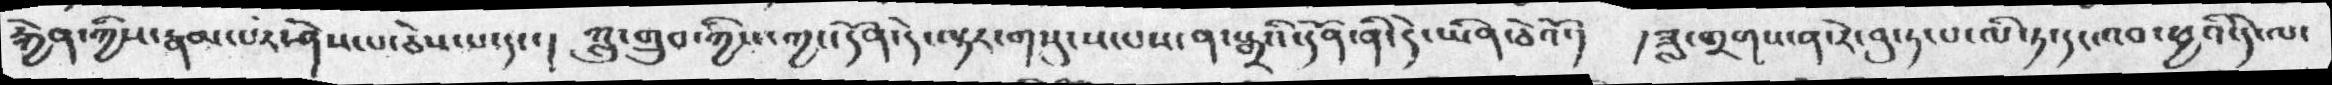རྐྱེན་ཀྱིས་རྣམ་པར་ཤེས་པ་ཅེས་པ་དང་།  ཀླུ་གྲུབ་ཀྱིས་ཀྱང་དོན་དེ་ལྟར་གསུངས་པས་ན་སྒྲའི་དོན་ནི་དེ་ཡིན་ཅེའོ་།  །ཟླ་གྲགས་ན་རེ་བུ་ཏ་པ་ལི་ཏ་དང་འབ་ཕྱའི་དེ་ལ་
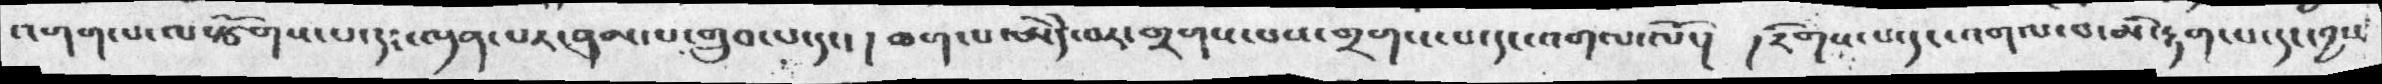འགག་༷པ་ལ་རྩོགས་པ་དང་ལྡན་པར་བུམ་པ་གྲུབ་པ་དང་།  ཆག་པ་མེདེ་བར་གྲགས་པས་གྲགས་པ་དང་འགལ་ལོ་།  །རིགས་པ་དང་འགལ་བ་མི་རྟག་པ་དང་བྱས
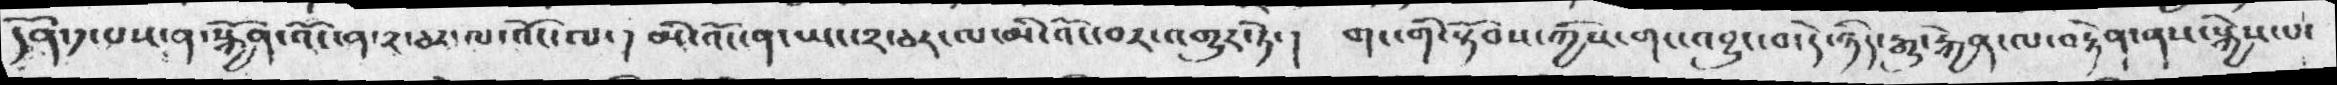དོན་༡་པས་ན་སྐྱོན་འོང་ན་༢་ཅར་ལ་འོང་ལ་། མི་འོང་ན་ཡང་༢་ཅར་ལ་མི་འོང་བར་འགྱུར་ཏེ་།  གང་གི་སྟོབས་ཀྱིས་གང་འབྱུང་བ་དེ་ཉིད་རྒྱུ་རྐྱེན་ལ་བརྟེན་ནས་སྐྱེས་པ་
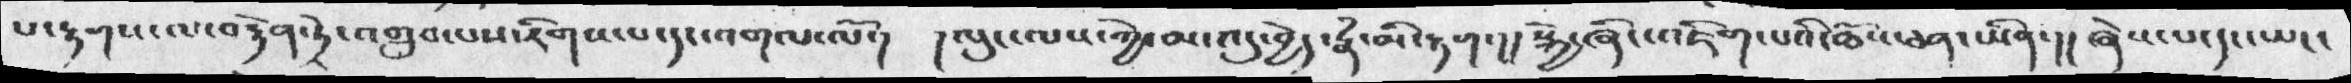པ་རྟགས་ལ་བརྟེན་ཏེ་འགྲུབ་པས་རིགས་པ་དང་འགལ་ལོ་།  །ལུང་ལས་ཀྱེ་མ་འདུ་བྱེད་རྣཾ་མི་རྟག་།། སྐྱེ་ཞིང་འཇིག་པའི་ཆོས་ཅན་ཡིན་།། ཞེས་པ་དང་ཡང་
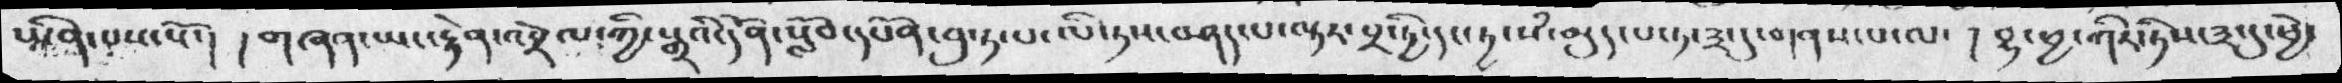ཡིན་པས་སོ་།  ། གཞན་ཡང་རྟེན་འབྲེལ་ཀྱི་སྒྲའི་དོན་སློབ་དཔོན་བུ་ཏ་པ་ལི་ཏས་བཤད་པ་ལྟར་པྲ་ཏྱི་དང་ཏྱ་སཾ་མུད་པ་ཏ་༣་དུ་གནས་པ་ལ་ ། བྷ་ཕྱ་ཀིར་ཏིས་༣་དུ་ཕྱེ་
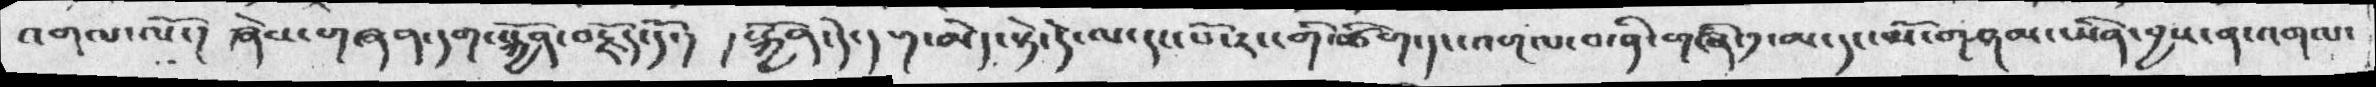འགལ་ལོ་། ཞེས་གཞན་དག་སྐྱོན་བརྗོད་དོ་། །སྐྱོན་དེ་དག་མེད་སྟེ་དེ་ལ་དང་པོ་རང་གི་ཚིག་དང་འགལ་བ་ནི་གཞི་དུ་མ་དང་མོ་གཤམ་པའི་བྱས་ན་འགལ་
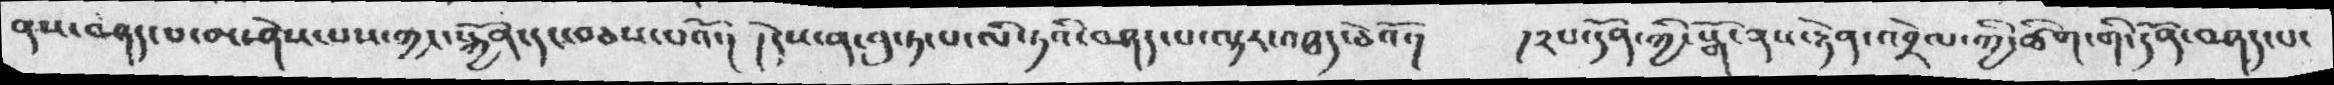ནས་བཤད་པ་མ་ཤེས་པས་ཀྱང་སྐྱོན་དང་བཅས་པའོ་། །དེས་ན་བུ་ཏ་པ་ལི་ཏའི་བཤད་པ་ལྟར་འཐད་ཅེའོ་། །༢པ་དོན་གྱི་སྒོ་ནས་རྟེན་འབྲེལ་ཀྱི་ཚིག་གི་དོན་བཤད་པ་
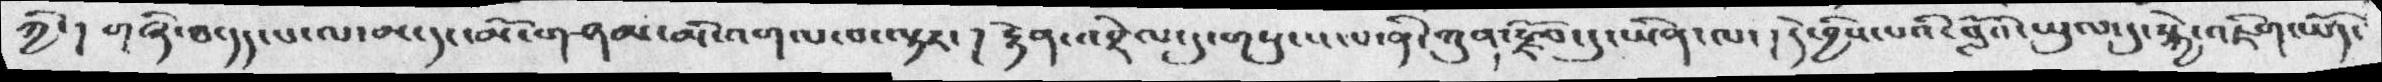ཀྱི་། གཞི་ཐ་དད་པ་ལ་མ་དང་མོ་གཤམ་མི་འགལ་བ་ལྟར་། རྟེན་འབྲེལ་དུ་གསུངས་པ་ནི་ཀུན་རྫོབ་དུ་ཡིན་ལ། །དེ་བྱིས་པའི་བློའི་ཡུལ་དུ་སྐྱེ་འཇིག་ཡོད་
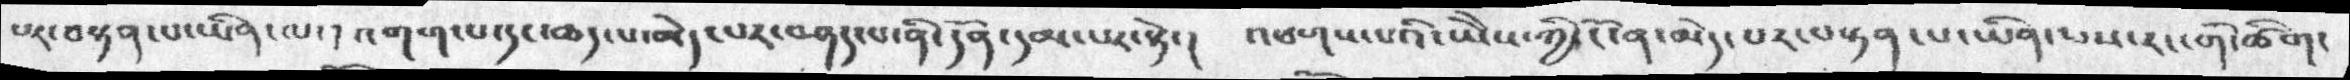པར་བསྟན་པ་ཡིན་ལ་། འགག་པ་དང་ཆད་པ་མེད་པར་བཤད་པ་ནི་དོན་དམ་པར་སྟེ་།  འཕགས་པའི་ཡེེས་ཀྱི་ངོ་ན་མེད་པར་བསྟན་པ་ཡིན་པས་རང་གི་ཚིག་
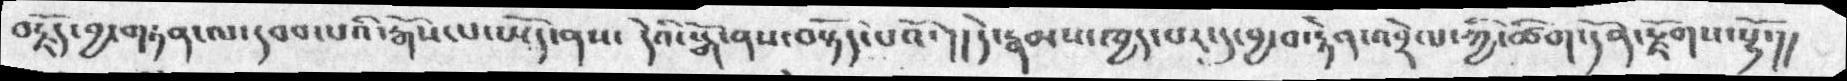བརྗོད་བྱ་གཏན་ལ་དབབ་པའི་རྒོས་པ་ཡོད་ནས  དེའི་སྒོ་ནས་བསྟོད་པའོ་།།   དེ་རྣམས་ཁྱད་པར་དུ་བྱ་བ་རྟེན་འབྲེལ་ཀྱི་ཚིག་དོན་རྫོགས་སྷོ་།།
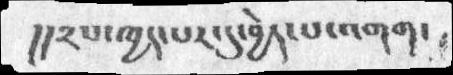།།༢པ་ཁྱད་པར་དུ་བྱེད་པ་འགག་
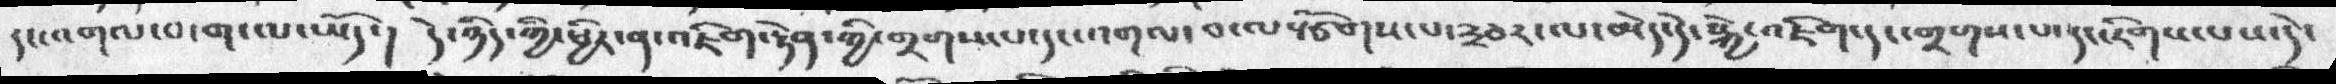དང་འགལ་བ་ག་ལ་ཡོད་། དེ་ཉིད་ཀྱི་ཕྱིར་ན་འཇིག་རྟེན་གྱི་གྲགས་པ་དང་འགལ་བ་ལས་སྩོགས་པ་༣བར་ལ་མེད་དེ་སྐྱེ་འཇིག་དང་གྲགས་པ་དང་རིགས་པས་དེ་
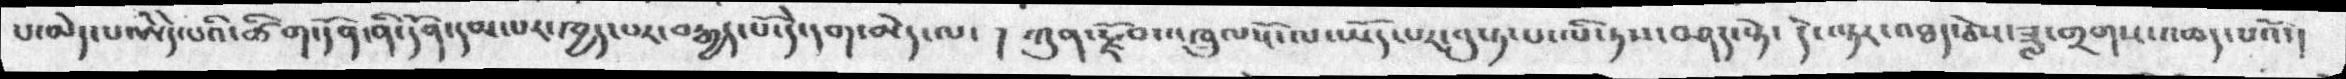པ་མེད་པ་ཨེདེ་པའི་ཚིག་དོན་ནི་དོན་དམ་པར་ཁྱད་པར་བརྒྱད་པོ་དེ་དག་མེད་ལ་། ཀུན་རྫོབ་འཁྲུལ་ངོ་ལ་ཡོད་པར་བུ་ཏ་པ་ལི་ཏས་བཤདད་སྟེ། དེ་ལྟར་འཐད་ཅེས་ཟླ་གྲགས་འཆད་པའོ་།
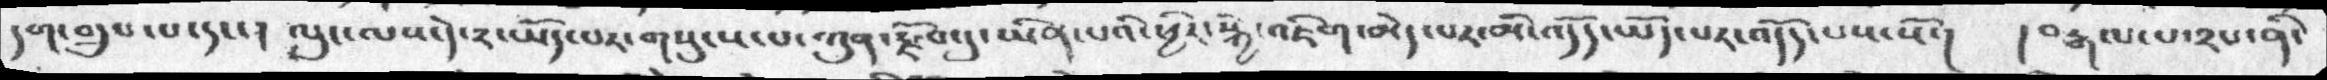དག་གྲུབ་པ་དང་། ལུང་ལས་དེ་༢ཡོད་པར་གསུངས་པ་ཀུན་རྫོབ་ཏུ་ཡིན་པའི་ཕྱིར་སྐྱེ་འཇིག་མེད་པར་མི་འདོད་ཡོད་པར་འདོད་པས་སོ་། །བརྒལ་པ་༢པ་ནི་
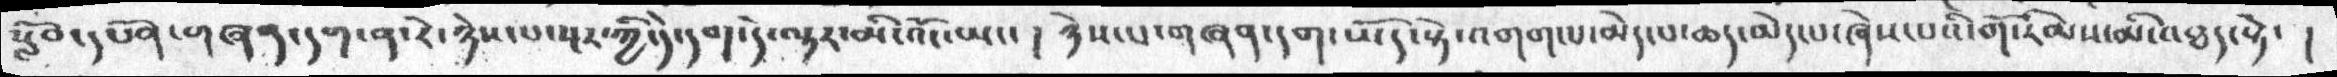སློབ་དཔོན་གཞན་དག་ན་ཏེ་ཉེས་པ་སྔར་གྱི་དེ་དག་དེ་ལྟར་མི་འོང་ཡང་། ཉེས་པ་གཞན་དག་ཡོད་སྟེ་འགག་པ་མེད་པ་ཆད་མེད་པ་ཞེས་པའི་གོ་རིམ་མི་འཐད་སྟེ་།
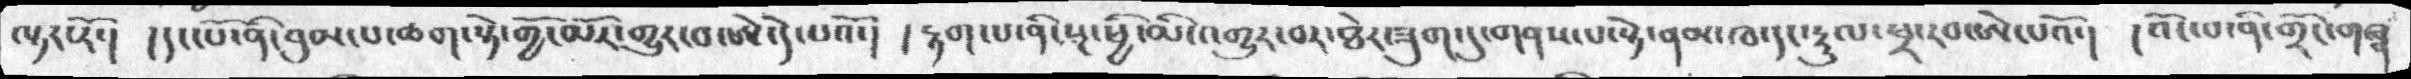ལྟར་རོ་།  །དང་པོ་ནི་བུམ་པ་ཆག་སྟེ་གྱོ་མོར་གྱུར་བ་ཨེ་དེ་པའོ་། །རྟག་པ་ནི་སྔ་ཕྱི་མི་འགྱུར་བར་ཐེར་ཟུག་དུ་གནས་པ་སྟེ་ནམ་ཁ་དང་རྡུལ་ཕྲ་རབ་ཨེ་པའོ་། །འོང་བ་ནི་གྲོང་གཞན་
